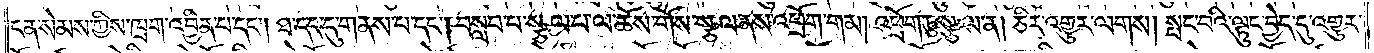ངན་སེམས་ཀྱིས་ཁྲག་འབྱིན་པ་དང༌། ཐ་དད་དུ་གནས་པ་དང༌། བསླབ་པ་སྩལ་པ་ལ་ཆོས་གོས་སྩལ་ནས་འཕྲོག་གམ། འཕྲོག་ཏུ་སྩལ་ན། ཅིར་འགྱུར་ལགས། སྤང་བའི་ལྟུང་བྱེད་དུ་འགྱུར་
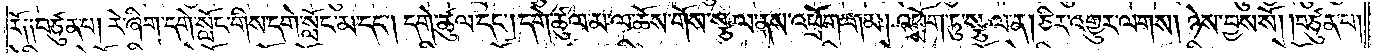རོ༑ ༑བཙུན་པ། རེ་ཞིག་དགེ་སློང་གིས་དགེ་སློང་མ་དང༌། དགེ་ཚུལ་དང༌། དགེ་ཚུལ་མ་ལ་ཆོས་གོས་སྩལ་ནས་འཕྲོག་གམ། འཕྲོག་ཏུ་སྩལ་ན། ཅིར་འགྱུར་ལགས། ཉེས་བྱས་སོ། །བཙུན་པ།
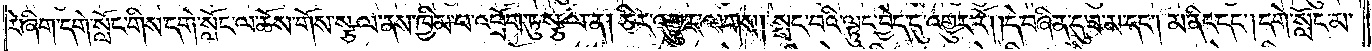རེ་ཞིག་དགེ་སློང་གིས་དགེ་སློང་ལ་ཆོས་གོས་སྩལ་ནས་ཁྱིམ་པ་འཕྲོག་ཏུ་སྩལ་ན། ཅིར་འགྱུར་ལགས། སྤང་བའི་ལྟུང་བྱེད་དུ་འགྱུར་རོ། །དེ་བཞིན་དུ་ཟ་མ་དང༌། མ་ནིང་དང༌། དགེ་སློང་མ་
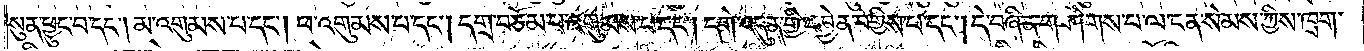སུན་ཕྱུང་བ་དང༌། མ་འགུམས་པ་དང༌། ཕ་འགུམས་པ་དང༌། དགྲ་བཅོམ་པ་འགུམས་པ་དང༌། དགེ་འདུན་གྱི་དབྱེན་བགྱིས་པ་དང༌། དེ་བཞིན་གཤེགས་པ་ལ་ངན་སེམས་ཀྱིས་ཁྲག་
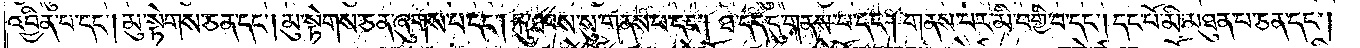འབྱིན་པ་དང༌། མུ་སྟེགས་ཅན་དང༌། མུ་སྟེགས་ཅན་ཞུགས་པ་དང༌། རྐུ་ཐབས་སུ་གནས་པ་དང༌། ཐ་དད་དུ་གནས་པ་དང༌། གནས་པར་མི་བགྱི་བ་དང༌། དང་པོ་མི་མཐུན་པ་ཅན་དང༌།
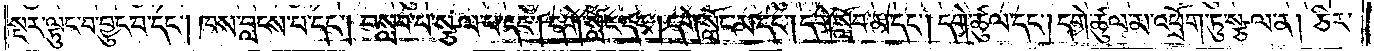སྔར་ལྟུང་བ་བྱུང་བ་དང༌། ཁས་བླངས་པ་དང༌། བསླབ་པ་སྩལ་པ་དང༌། དགེ་སློང་དང༌། དགེ་སློང་མ་དང༌། དགེ་སློབ་མ་དང༌། དགེ་ཚུལ་དང༌། དགེ་ཚུལ་མ་འཕྲོག་ཏུ་སྩལ་ན། ཅིར་
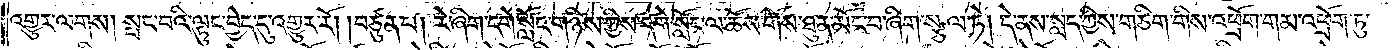འགྱུར་ལགས། སྤང་བའི་ལྟུང་བྱེད་དུ་འགྱུར་རོ། །བཙུན་པ། རེ་ཞིག་དགེ་སློང་གཉིས་ཀྱིས་དགེ་སློང་ལ་ཆོས་གོས་ཐུན་མོང་བ་ཞིག་སྩལ་ཏེ། དེ་ནས་སླད་ཀྱིས་གཅིག་གིས་འཕྲོག་གམ་འཕྲོག་ཏུ་
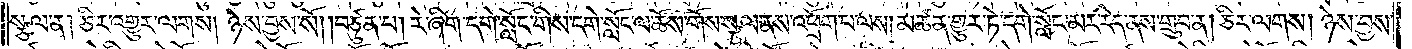སྩལ་ན། ཅིར་འགྱུར་ལགས། ཉེས་བྱས་སོ། །བཙུན་པ། རེ་ཞིག་དགེ་སློང་གིས་དགེ་སློང་ལ་ཆོས་གོས་སྩལ་ནས་འཕྲོག་པ་ལས། མཚན་གྱུར་ཏེ་དགེ་སློང་མར་རེད་ནས་གྲུབ་ན། ཅིར་ལགས། ཉེས་བྱས་
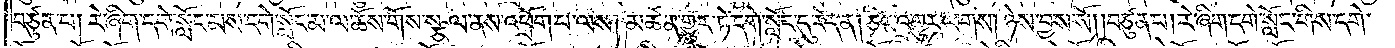བཙུན་པ། རེ་ཞིག་དགེ་སློང་མས་དགེ་སློང་མ་ལ་ཆོས་གོས་སྩལ་ནས་འཕྲོག་པ་ལས། མཚན་གྱུར་ཏེ་དགེ་སློང་དུ་རེད་ན། ཅིར་འགྱུར་ལགས། ཉེས་བྱས་སོ། །བཙུན་པ། རེ་ཞིག་དགེ་སློང་གིས་དགེ་
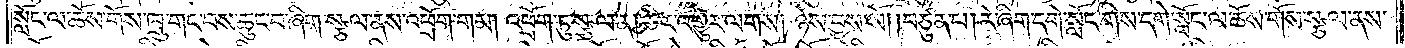སློང་ལ་ཆོས་གོས་ཁྲུ་གང་བས་ཆུང་བ་ཞིག་སྩལ་ནས་འཕྲོག་གམ། འཕྲོག་ཏུ་སྩལ་ན། ཅིར་འགྱུར་ལགས། ཉེས་བྱས་སོ། །བཙུན་པ། རེ་ཞིག་དགེ་སློང་གིས་དགེ་སློང་ལ་ཆོས་གོས་སྩལ་ནས་
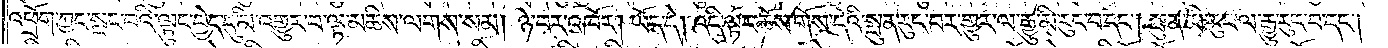འཕྲོག་ཀྱང་སྤང་བའི་ལྟུང་བྱེད་དུ་མི་འགྱུར་བ་ལྟ་མཆིས་ལགས་སམ། ཉེ་བར་འཁོར། ཡོད་དེ། འདི་ལྟར་ཆོས་གོས་དེའི་སྤུན་རུང་བར་གྱུར་ལ་རྒྱུ་མི་རུང་བ་དང༌། སྤུན་མི་རུང་ལ་རྒྱུ་རུང་བ་དང༌།
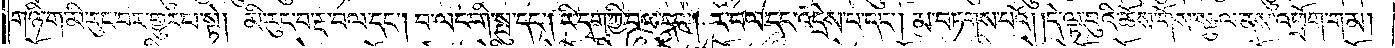གཉི་ག་མི་རུང་བར་གྱུར་པ་སྟེ། མི་རུང་བ་རྔ་བལ་དང༌། བ་ལང་གི་སྤུ་དང༌། རི་དྭགས་ཀྱི་བལ་དང༌། ར་བལ་དང་འདྲེས་པ་དང༌། མ་བཏགས་པའོ། །དེ་ལྟ་བུའི་ཆོས་གོས་སྩལ་ནས་འཕྲོག་གམ།
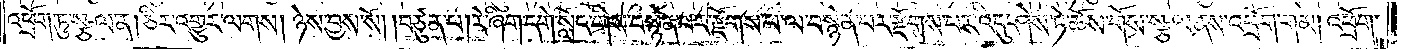འཕྲོག་ཏུ་སྩལ་ན། ཅིར་འགྱུར་ལགས། ཉེས་བྱས་སོ། །བཙུན་པ། རེ་ཞིག་དགེ་སློང་གིས་བསྙེན་པར་རྫོགས་པ་ལ་བསྙེན་པར་རྫོགས་པར་འདུ་ཤེས་ཏེ་ཆོས་གོས་སྩལ་ནས་འཕྲོག་གམ། འཕྲོག་
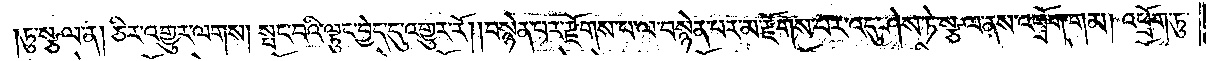།ཏུ་སྩལ་ན། ཅིར་འགྱུར་ལགས། སྤང་བའི་ལྟུང་བྱེད་དུ་འགྱུར་རོ། །བསྙེན་པར་རྫོགས་པ་ལ་བསྙེན་པར་མ་རྫོགས་པར་འདུ་ཤེས་ཏེ་སྩལ་ནས་འཕྲོག་གམ། འཕྲོག་ཏུ་
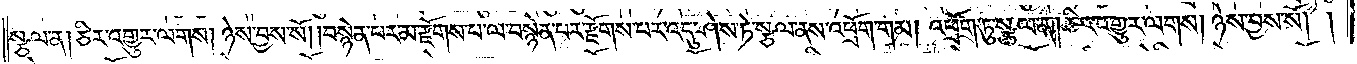སྩལ་ན། ཅིར་འགྱུར་ལགས། ཉེས་བྱས་སོ། །བསྙེན་པར་མ་རྫོགས་པ་ལ་བསྙེན་པར་རྫོགས་པར་འདུ་ཤེས་ཏེ་སྩལ་ནས་འཕྲོག་གམ། འཕྲོག་ཏུ་སྩལ་ན། ཅིར་འགྱུར་ལགས། ཉེས་བྱས་སོ། །
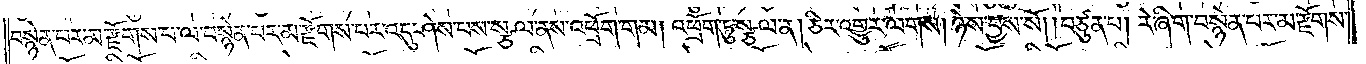བསྙེན་པར་མ་རྫོགས་པ་ལ་བསྙེན་པར་མ་རྫོགས་པར་འདུ་ཤེས་པས་སྩལ་ནས་འཕྲོག་གམ། འཕྲོག་ཏུ་སྩལ་ན། ཅིར་འགྱུར་ལགས། ཉེས་བྱས་སོ། །བཙུན་པ། རེ་ཞིག་བསྙེན་པར་མ་རྫོགས་
